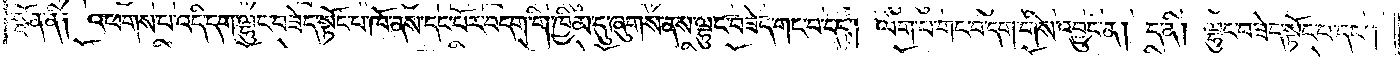སྔོན་ནི། འཕགས་པ་འདི་དག་ལྷུང་བཟེད་སྟོང་པ་ཁོ་ནས་དང་པོར་བདག་གི་ཁྱིམ་དུ་ཞུགས་ནས་ལྷུང་བཟེད་གང་བ་དང༌། ལག་པ་གང་བ་དག་གིས་འབྱུང་ན། ད་ནི། ལྷུང་བཟེད་སྟོང་པ་དང༌།
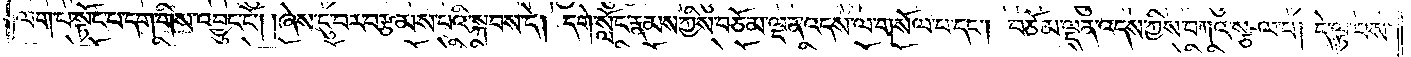ལག་པ་སྟོང་པ་དག་གིས་འབྱུང་ངོ༌། །ཞེས་ངུ་བར་བརྩམས་པའི་སྐབས་དེ། དགེ་སློང་རྣམས་ཀྱིས་བཅོམ་ལྡན་འདས་ལ་གསོལ་པ་དང༌། བཅོམ་ལྡན་འདས་ཀྱིས་བཀའ་སྩལ་པ། དེ་ལྟ་བས་
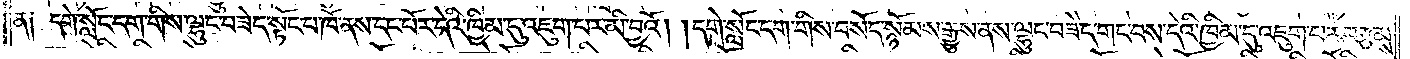ན། དགེ་སློང་དག་གིས་ལྷུང་བཟེད་སྟོང་པ་ཁོ་ནས་དང་པོར་དེའི་ཁྱིམ་དུ་འཇུག་པར་མི་བྱའོ། །དགེ་སློང་དག་གིས་བསོད་སྙོམས་རྒྱུས་ནས་ལྷུང་བཟེད་གང་བས་དེའི་ཁྱིམ་དུ་འཇུག་པར་བརྩམས་
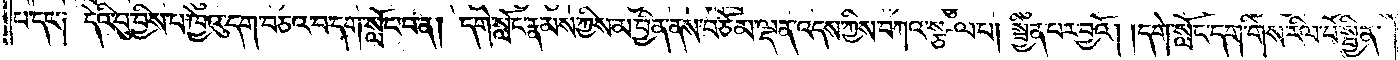པ་དང༌༑ དེའི་བུ་བྱིས་པ་ཁྱེའུ་དག་བཅའ་བ་དག་སློང་བ་ན། དགེ་སློང་རྣམས་ཀྱིས་མ་བྱིན་ནས་བཅོམ་ལྡན་འདས་ཀྱིས་བཀའ་སྩལ་པ། སྦྱིན་པར་བྱའོ། །དགེ་སློང་དག་གིས་རིལ་པོ་སྦྱིན་
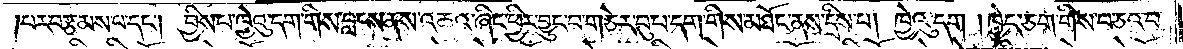།པར་བརྩམས་པ་དང༌། བྱིས་པ་ཁྱེའུ་དག་གིས་བླངས་ནས་འཆའ་ཞིང་ཕྱིར་བྱུང་བ་གཅེར་བུ་པ་དག་གིས་མཐོང་ནས་དྲིས་པ། ཁྱེའུ་དག །ཁྱེད་ཅག་གིས་བཅའ་བ་
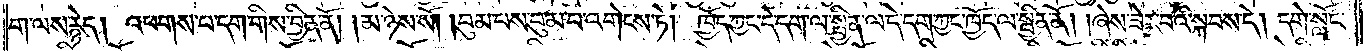ག་ལས་རྙེད། འཕགས་པ་དག་གིས་བྱིན་ནོ། །མ་ཉེས་སོ། །བུམ་པས་བུམ་པ་འགེངས་ཏེ། ཁྱོད་ཀྱང་དེ་དག་ལ་སྦྱིན་ལ་དེ་དག་ཀྱང་ཁྱོད་ལ་སྦྱིན་ནོ། །ཞེས་ཟེར་བའི་སྐབས་དེ། དགེ་སློང་
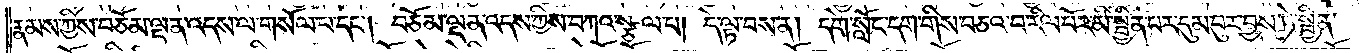རྣམས་ཀྱིས་བཅོམ་ལྡན་འདས་ལ་གསོལ་པ་དང༌། བཅོམ་ལྡན་འདས་ཀྱིས་བཀའ་སྩལ་པ། དེ་ལྟ་བས་ན། དགེ་སློང་དག་གིས་བཅའ་བ་རིལ་པོར་མི་སྦྱིན་པར་དུམ་བུར་བྱས་ཏེ་སྦྱིན་
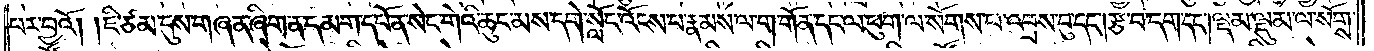པར་བྱའོ། །ཇི་ཙམ་དུས་གཞན་ཞིག་ན་དམག་དཔོན་སེང་གེའི་ཆུང་མས་དགེ་སློང་འོངས་པ་རྣམས་ལ་ག་གོན་དང་ལ་ཕུག་ལ་སོགས་པ་འབྲས་བུ་དང༌། རྩ་བ་དག་དང༌། ལྡམ་ལྡུམ་ལ་སོགས་
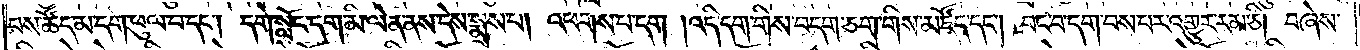པས་ཚོད་མ་དག་ཕུལ་བ་དང༌། དགེ་སློང་དག་མི་ལེན་ནས་དེས་སྨྲས་པ། འཕགས་པ་དག །འདི་དག་གིས་བདག་ཅག་གིས་མཛོད་དང༌། བང་བ་དག་བས་པར་འགྱུར་རམ་ཅི། བཞེས་
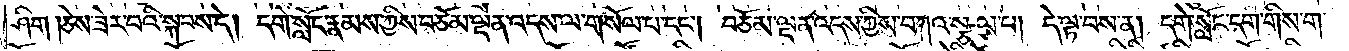ཤིག །ཅེས་ཟེར་བའི་སྐབས་དེ། དགེ་སློང་རྣམས་ཀྱིས་བཅོམ་ལྡན་འདས་ལ་གསོལ་པ་དང༌། བཅོམ་ལྡན་འདས་ཀྱིས་བཀའ་སྩལ་པ། དེ་ལྟ་བས་ན། དགེ་སློང་དག་གིས་ག་
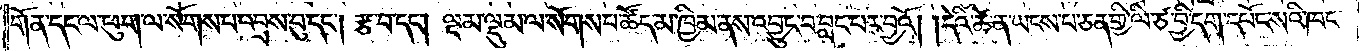གོན་དང་ལ་ཕུག་ལ་སོགས་པ་འབྲས་བུ་དང༌། རྩ་བ་དང༌། ལྡམ་ལྡུམ་ལ་སོགས་པ་ཚོད་མ་ཁྱིམ་ནས་འབྱུང་བ་བླང་བར་བྱའོ། །དེའི་ཚེ་ན་ཡངས་པ་ཅན་གྱི་ལི་ཙ་བྱི་དག་དཔོང་སའི་ཁང་
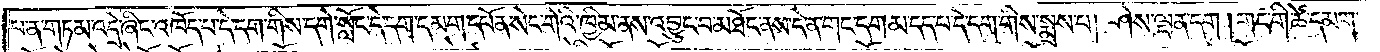པ་ན་གཏམ་འདྲེ་ཞིང་འཁོད་པ་དེ་དག་གིས་དགེ་སློང་དེ་དག་དམག་དཔོན་སེང་གེའི་ཁྱིམ་ནས་འབྱུང་བ་མཐོང་ནས་དེ་ན་གང་དག་མ་དད་པ་དེ་དག་གིས་སྨྲས་པ། ཤེས་ལྡན་དག །གང་གི་ཚེ་དམག་
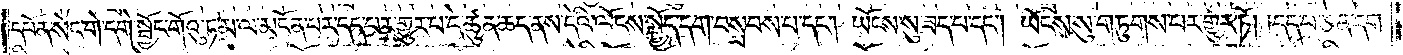དཔོན་སེང་གེ་དགེ་སྦྱོང་གོའུ་ཏ་མ་ལ་མངོན་པར་དད་པར་གྱུར་པ་དེ་ཚུན་ཆད་ནས་དེའི་ལོངས་སྤྱོད་དག་བསྲབས་པ་དང༌། ཡོངས་སུ་ཟད་པ་དང༌། ཡོངས་སུ་གཏུགས་པར་གྱུར་ཏོ། །དད་པ་ཅན་དག་
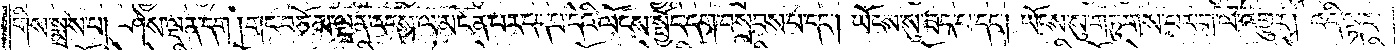གིས་སྨྲས་པ། ཤེས་ལྡན་དག །གང་བཅོམ་ལྡན་འདས་ལ་མངོན་པར་དད་པ་དེའི་ལོངས་སྤྱོད་དག་བསྲབས་པ་དང༌། ཡོངས་སུ་ཟད་པ་དང༌། ཡོངས་སུ་གཏུགས་པར་ག་ལ་འགྱུར། འདི་ལྟར་
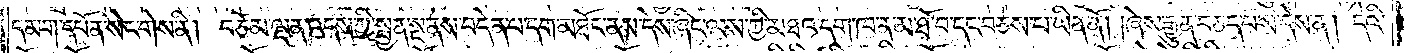དམག་དཔོན་སེང་གེས་ནི། བཅོམ་ལྡན་འདས་ཀྱི་སྤྱན་སྔ་ནས་བདེན་པ་དག་མཐོང་ནས་དེས་ཞིང་ལས་ཀྱི་མཐའ་དག་ཁ་ན་མ་ཐོ་བ་དང་བཅས་པ་ཡིན་ནོ། །ཞེས་རྒྱུན་བཅད་པས་དེས་ན། དེའི་
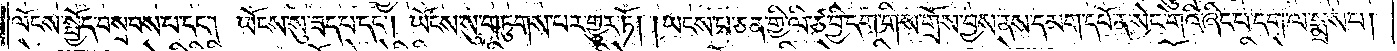ལོངས་སྤྱོད་བསྲབས་པ་དང༌། ཡོངས་སུ་ཟད་པ་དང༌། ཡོངས་སུ་གཏུགས་པར་གྱུར་ཏོ། །ཡངས་པ་ཅན་གྱི་ལི་ཙ་བྱི་དག་གིས་གྲོས་བྱས་ནས་དམག་དཔོན་སེང་གེའི་ཞིང་པ་དག་ལ་སྨྲས་པ།
